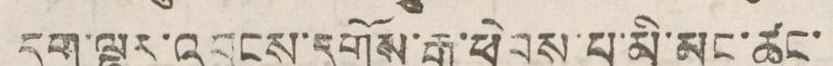དྲག་ལྷུར་འབུངས་དགོས་རྒྱུ་ཕེབས་པ་མི་མང་ཚང་
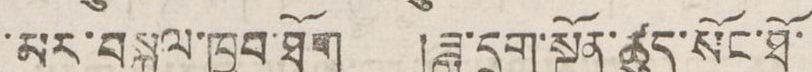་མང་བསྐུལ་ཁྱབ་ཐོག །ཟླ་དྲུག་སྔོན་ཚུད་སོང་ཐོ་
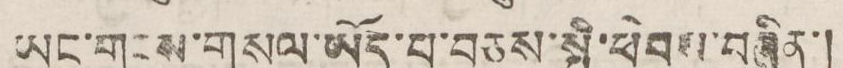ཡང་གྲངས་གསལ་ཡོད་པ་བཅས་སྤྱི་ཕེབས་བཞིན་།
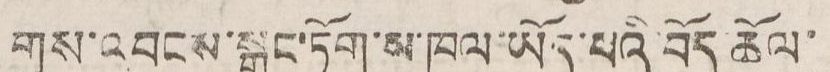གུས་འབངས་སྒང་ཏོག་མ་ཁུལ་ཡོད་པའི་བོད་ཆོལ་
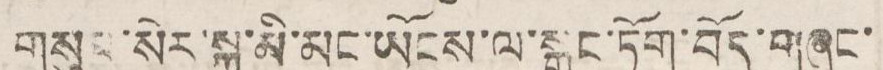གསུམ་སེར་སྐྱ་མི་མང་ཡོངས་ལ་སྒང་ཏོག་བོད་གཞུང་
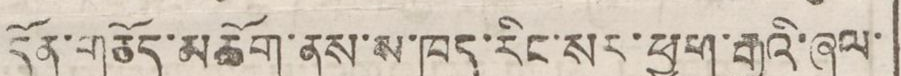དོན་གཅོད་མཆོག་ནས་ས་ཁད་རིང་སར་ཕྱག་རྒྱའི་ཞལ་
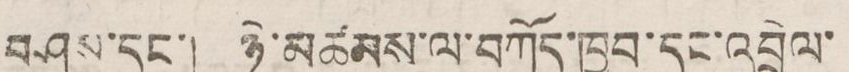བཤུས་དང་། ཉེ་མཚམས་ལ་བཀོད་ཁྱབ་དང་འབྲེལ་
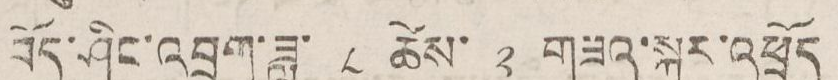བོད་ཤིང་འབྲུག་ཟླ་ ༨ ཚེས་ ༢ གཟའ་སྐར་འཕྲོད
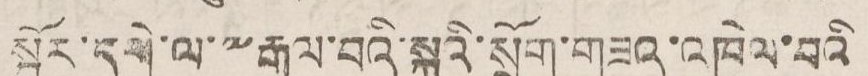སྦྱོར་དགེ་ལ་༸རྒྱལ་བའི་སྐུའི་སྲོག་གཟའ་འཁེལ་བའི
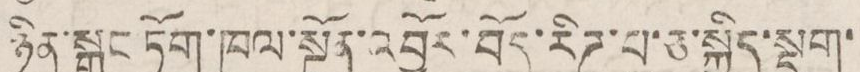ཉིན་སྒང ཏོག་ཁུལ་སྔོན་འབྱོར་བོད་རིཊ་པྰ་ཅ་སྐྱིད་སྡུག་
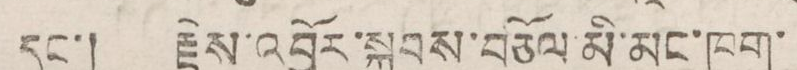དང་། རྗེས་འབྱོར་སྐྱབས་བཅོལ་མི་མང་ཁག་
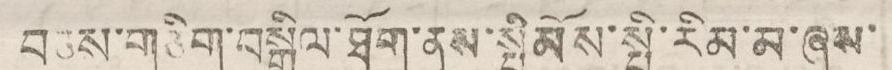བཅས་གཅིག་བསྒྲིལ་ཐོག་ནས་སྤྱི མོས་སྤྱི་རིམ་མ་ཞུས་
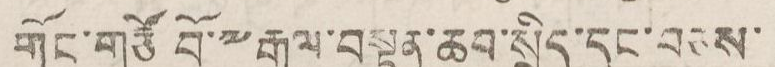གོང་གཙོ བོ་༸རྒྱལ་བསྟན་ཆབ་སྲིད་དང་བཅས་
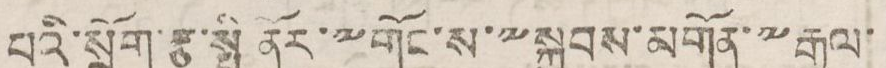པའི་སྲོག་རྩ་སྤྱི ནོར་༸གོང་ས་༸སྐྱབས་མགོན་༸རྒྱལ་
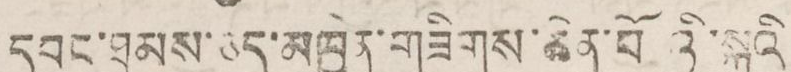དབང་ཐམས་ཅད་མཁྱེན་གཟིགས་ཆེན་པོའི ཉི་སྐུའི
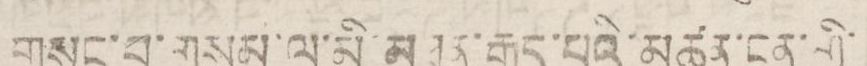གསང་བ་གསུམ་ལ་མི་མཐུན་རྒུད་པའི་མཚན་ངན་གྱི་
